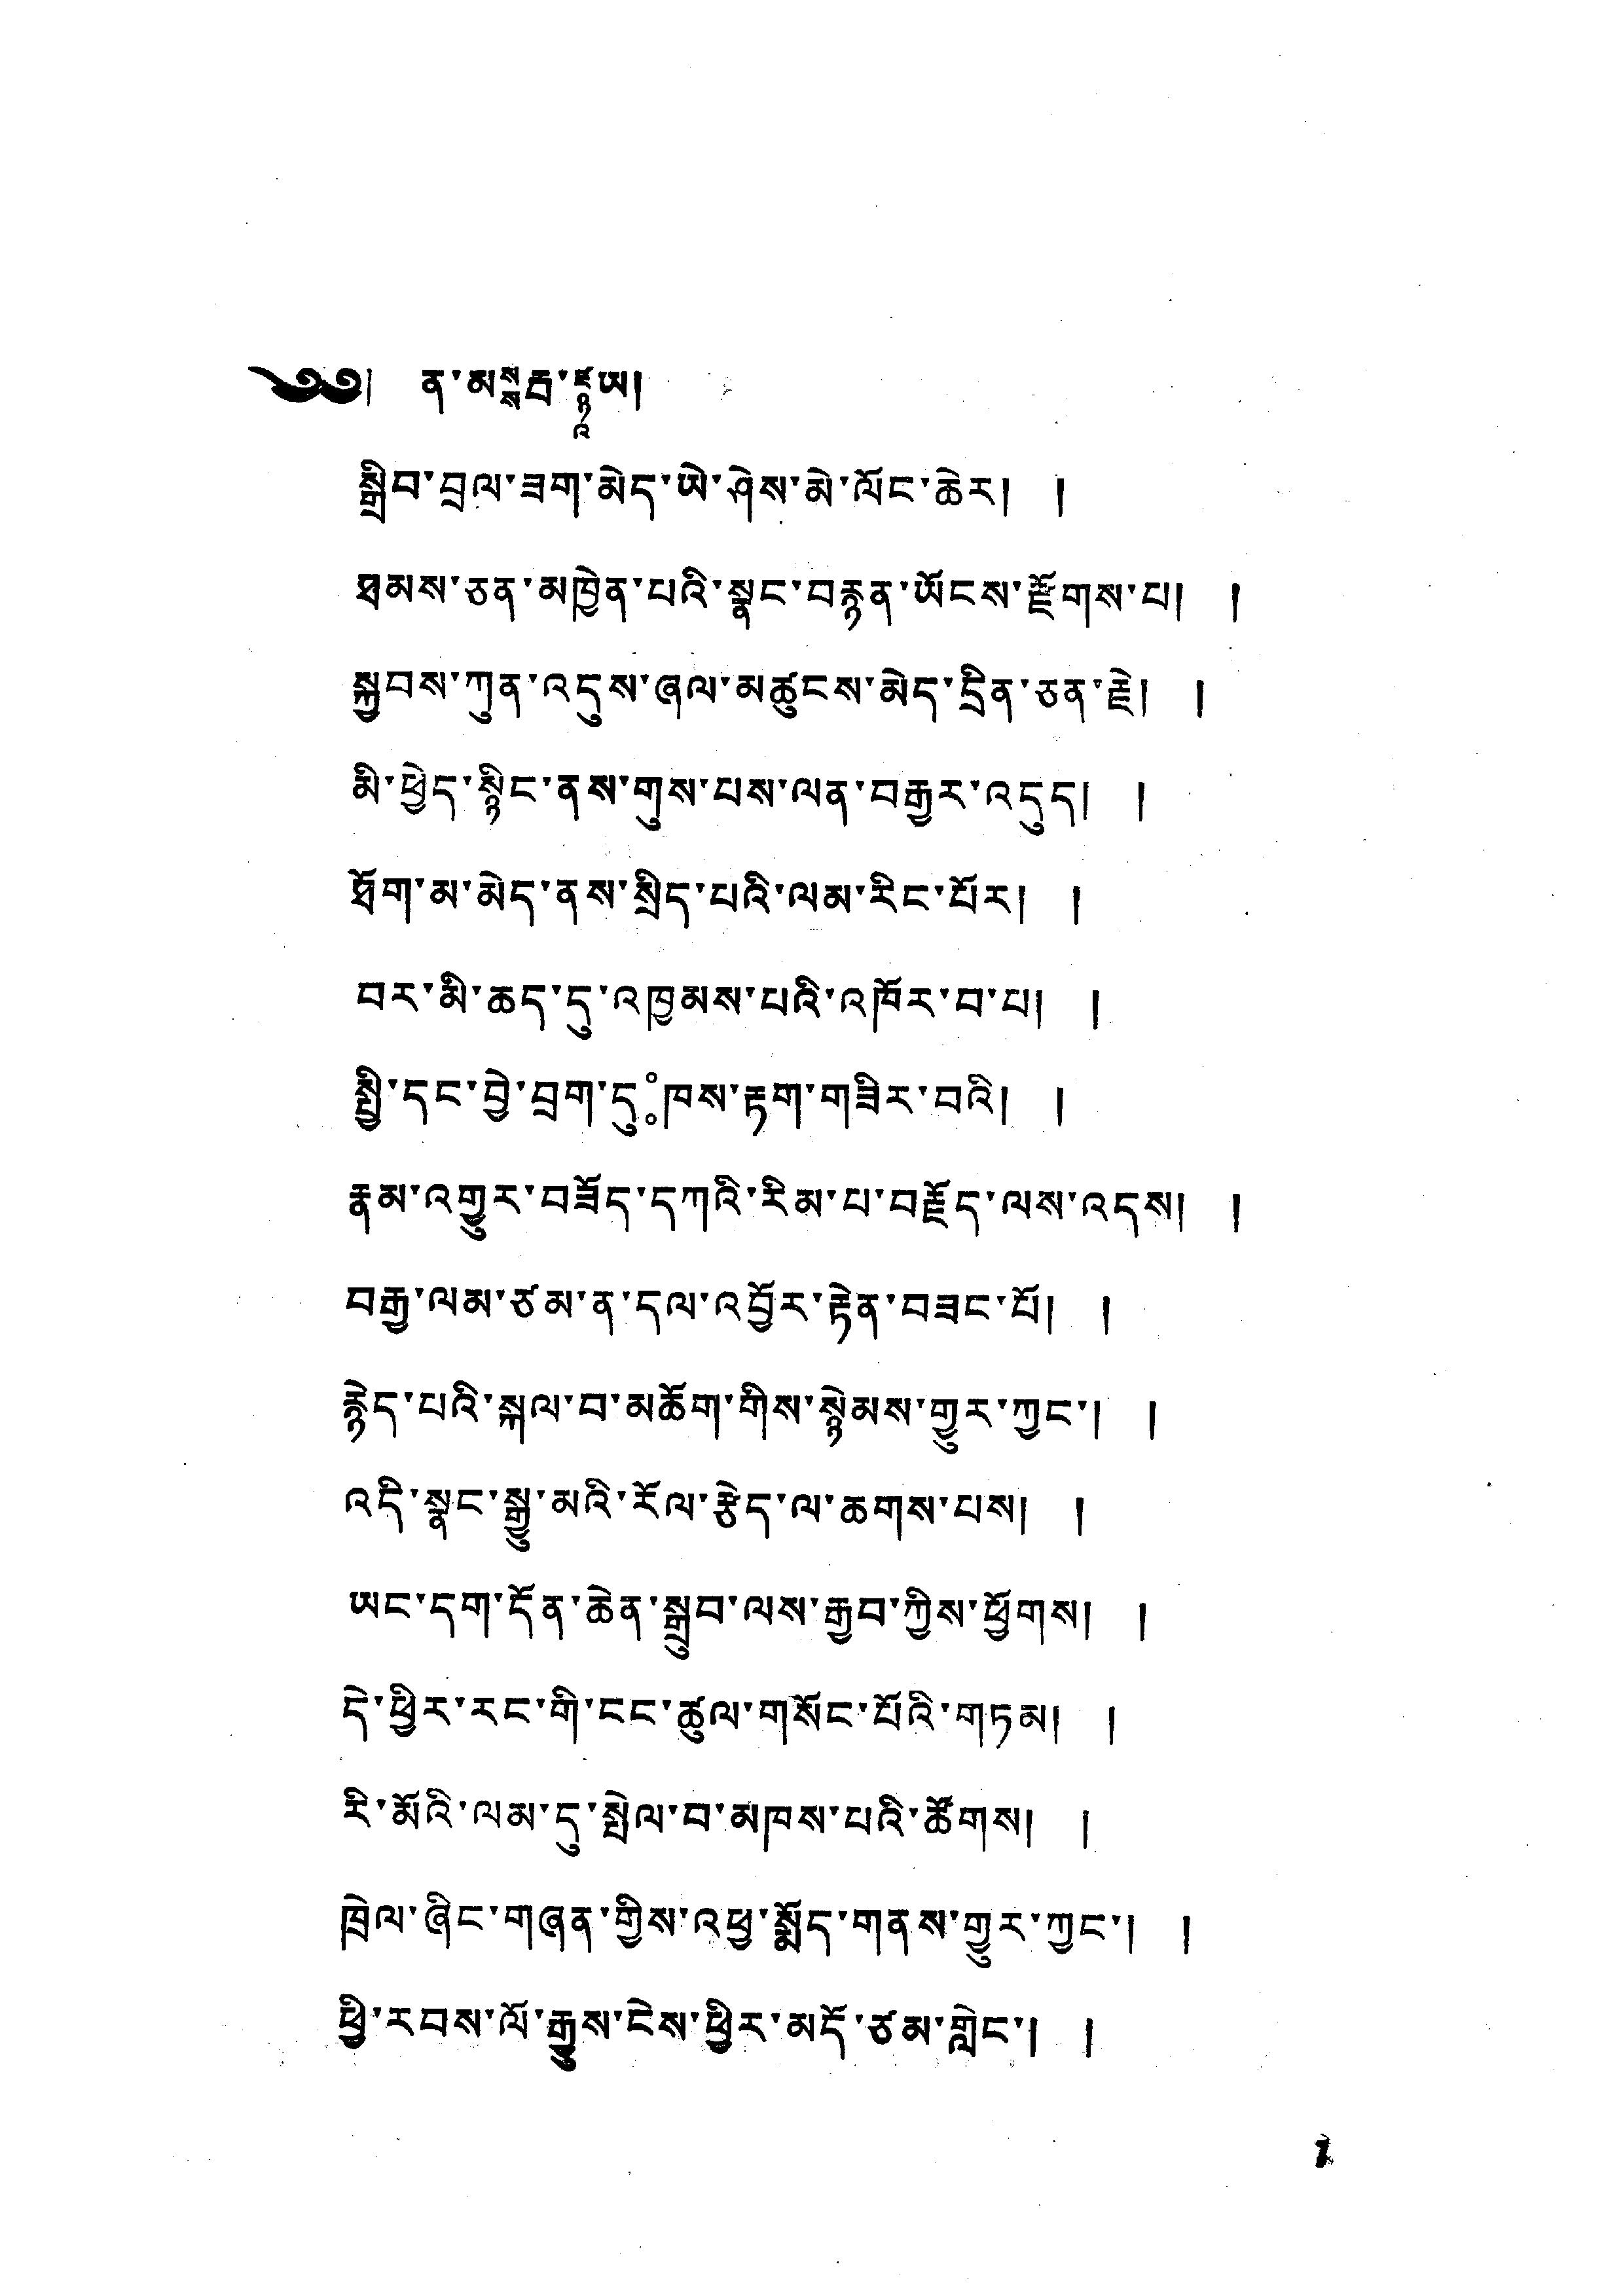༄༅། ན་མསྶརྦ་ཛྙཱཡ།
སྒྲིབ་བྲལ་ཟག་མེད་ཡེ་ཤེས་མེ་ལོང་ཆེར། །
ཐམས་ཅན་མཁྱེན་པའི་སྣང་བརྙན་ཡོངས་རྫོགས་པ། །
སྐྱབས་ཀུན་འདུས་ཞལ་མཚུངས་མེད་དྲིན་ཅན་རྗེ། །
མི་ཕྱེད་སྙིང་ནས་གུས་པས་ལན་བརྒྱར་འདྲད། །
ཐོག་མ་མེད་ནས་སྲིད་པའི་ལམ་རིང་པོར། །
བར་མི་ཆད་དུ་འཁྱམས་པའི་འཁོར་བ་པ། །
སྤྲི་དང་བྱེ་བྲག་དུཿཁས་རྟག་གཟིར་བའི། །
རྣམ་འགྱུར་བཟོད་དཀའི་རིམ་པ་བརྗོད་ལས་འདས། །
བརྒྱ་ལམ་ཙམ་ན་དལ་འབྱོར་རྟེན་བཟང་པོ། །
རྙེད་པའི་སྐལ་བ་མཆོག་གིས་སྙེམས་གྱུར་ཀྱང་། །
འདི་སྣང་སྒྱུ་མའི་རོལ་རྩེད་ལ་ཆགས་པས། །
ཡང་དག་དོན་ཆེན་སྒྲུབ་ལས་རྒྱབ་ཀྱིས་ཕྱོགས། །
དེ་ཕྱིར་རང་གི་ངང་ཚུལ་གསོང་པོའི་གཏམ། །
རི་མོའི་ལམ་དུ་སྤེལ་བ་མཁས་པའི་ཚོགས། །
ཁྲེལ་ཞིང་གཞན་གྱིས་འཕྱ་སྨོད་གནས་གྱུར་ཀྱང་། །
ཕྱི་རབས་ལོ་རྒྱུས་ངེས་ཕྱིར་མདོ་ཙམ་གླེང་། །
1
